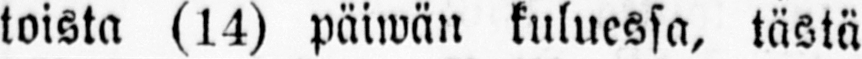toista (14) päiwän kuluessa, tästä
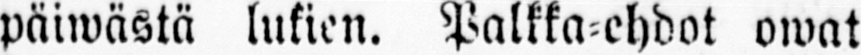päiwästä lukien. Palkka ehdot owat
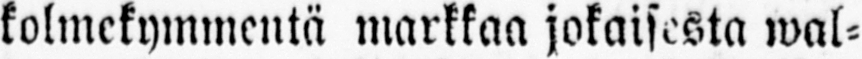kolmekymmentä markkaa jokaisesta wal-
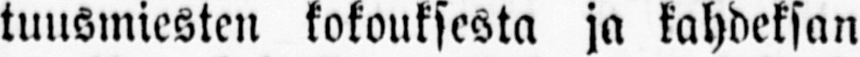tuusmiesten kokouksesta ja kahdeksan
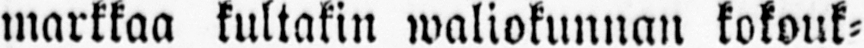markkaa kultakin waliokunnan kokouk-
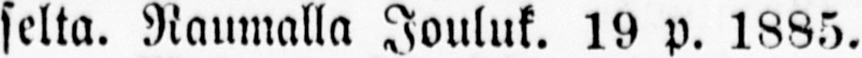selta. Raumalla jouluk. 19 p. 1885.
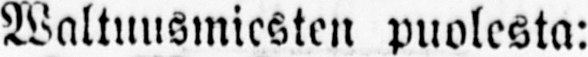Waltuusmiesten puolesta:
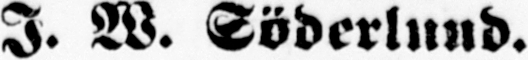J. W. Söderlund.
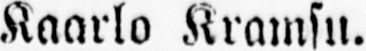Kaarlo Kramsu.
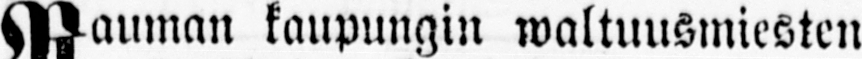Rauman kaupungin waltuusmiesten
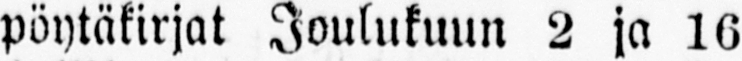pöytäkirjat Joulukuun 2 ja 16
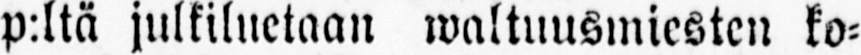p:ltä julkiluetaan waltuusmiesten ko-
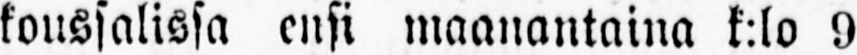koussalissa ensi maanantaina k:lo 9
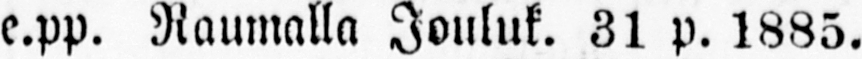e.pp. Raumalla jouluk. 31 p. 1885.
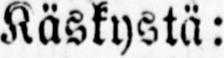Käskystä:
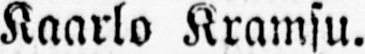Kaarlo Kramsu.
